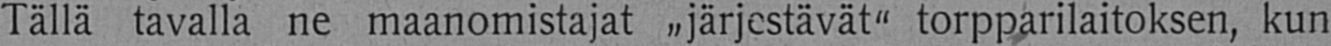Tällä tavalla ne maanomistajat „järjestävät" torpparilaitoksen, kun
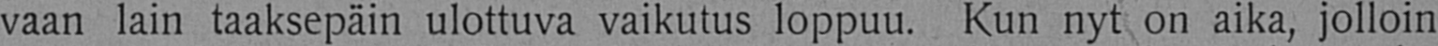vaan lain taaksepäin ulottuva vaikutus loppuu. Kun nyt on aika, jolloin
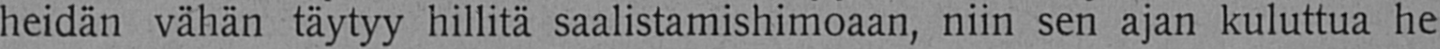heidän vähän täytyy hillitä saalistamishimoaan, niin sen ajan kuluttua he
